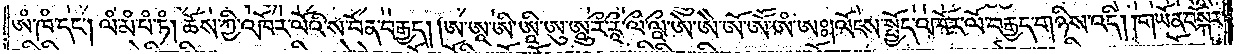ཨཾ་ཁཾ་དང༌། ལཾ་མཾ་པཾ་ཏཾ། ཆོས་ཀྱི་འཁོར་ལོའི་ས་བོན་བརྒྱད། །ཨ་ཨཱ་ཨི་ཨཱི་ཨུ་ཨཱུ་རྀ་རཱྀ་ལྀ་ལཱྀ་ཨེ་ཨཻ་ཨོ་ཨཽ་ཨཾ་ཨཿ། ལོངས་སྤྱོད་འཁོར་ལོ་བརྒྱད་གཉིས་འདི། །གཡོན་བསྐོར་
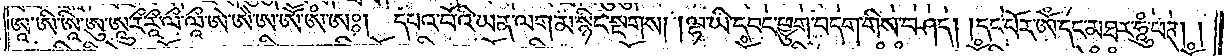ཨཱ་ཨི་ཨཱི་ཨུ་ཨཱུ་རྀ་རཱྀ་ལྀ་ལཱྀ་ཨེ་ཨཻ་ཨ་ཨཽ་ཨཾ་ཨཿ། དཔའ་བོའི་ཡན་ལག་མ་སྙིང་སྔགས། །ལྷ་ཡི་དབང་ཕྱུག་བདག་གིས་བཤད། །དང་པོ་ར་ཨོཾ་དང་མཐར་ཧཱུཾ་ཕཊ། །
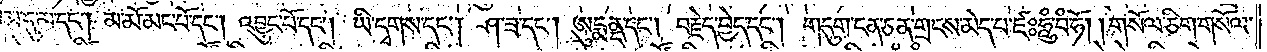མ་དུ་མ་དང༌། མ་མོ་མང་པོ་དང༌། འབྱུང་པོ་དང༌། ཡི་དྭགས་དང༌། ཤ་ཟ་དང༌། ཨུདྨནྡ་དང༌། བརྗོད་བྱེད་དང༌། གདུག་ངན་ཅན་གྲངས་མེད་པ་ཛཿཧཱུཾ་བཾ་ཧོ། །གསོལ་ཅིག་གསོལ་
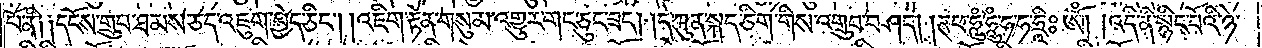པོ་ནི༑ ༑དངོས་གྲུབ་ཐམས་ཅད་འཇུག་བྱེད་ཅིང༌། །འཇིག་རྟེན་གསུམ་འགྱུར་གང་ཅུང་ཟད། །དེ་ཀུན་སྐད་ཅིག་གིས་འགྲུབ་བཤད། །ཊཕ་ཧཱུཾ་ཧཱུཾ་ཧ་ཧ་ཧྲཱིཿ ཨོཾ། །འདི་ནི་སྙིང་པོའི་ཉེ་
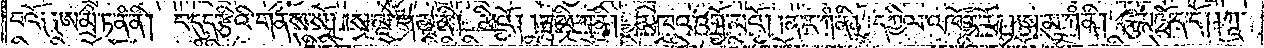བའོ༑ ༑ཨ་མྲྀ་ཏ་ནཾ་ནི། བདུད་རྩིའི་གནས་སོ། །ས་མཱ་ག་མཱ་ནི། མིའོ། །ཏཱ་ལི་ཀ་ནི། མཁའ་འགྲོ་མའོ། །ན་ར་ཀཾ་ནི། དཀྱིལ་འཁོར་རོ། །ཨ་མུ་ཀཾ་ནི། དུར་ཁྲོད་དོ། །ཀཱ་
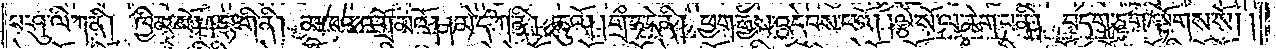པ་ཤུ་ལི་ཀ་ནི། ཁྱིམ་མོ། །བྷ་གི་ནི། མཁའ་འགྲོ་མའོ། །མེ་ད་ཀ་ནི། ཆུའོ། །གྲྀ་ཧ་དེ་ནི། ཕྱག་རྒྱས་འདེབས་པའོ། །ལྕེ་སོ་ལ་རེག་པ་ནི། བདག་ཅག་ལྟོགས་སོ༎
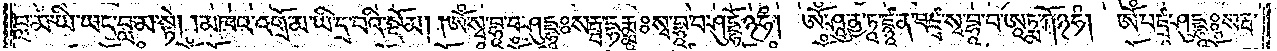བླ་མ་ཡི་ཡང་བླ་མ་སྟེ། །མཁའ་འགྲོ་མ་ཡི་དྲ་བའི་སྡོམ། །ཨོཾ་སྭ་བྷཱ་བ་ཤུདྡྷཱཿསརྦྦ་དྷརྨཱཿསྭ་བྷཱ་བ་ཤུདྡྷོ྅ཧཾ། ཨོཾ་ཤཱུ་ཉ་ཏཱ་ཛྙཱ་ན་བཛྲ་སྭ་བྷཱ་བ་ཨཱཏྨ་ཀོ྅ཧཾ། ཨོཾ་བཛྲ་ཤུདྡྷཱཿསརྦ།
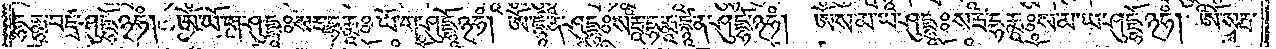དྷརྨཱ་བཛྲ་ཤུདྡྷོ྅ཧཾ། ཨོཾ་ཡོ་ག་ཤུདྡྷཱཿསརྦ་དྷརྨཱཿཡོ་ག་ཤུདྡྷཱོ྅ཧཾ། ཨོཾ་ཛྙཱ་ན་ཤུདྡྷཿསརྦཱ་དྷརྨཱ་ཛྙཱ་ན་ཤུདྡྷོ྅ཧཾ། ཨོཾ་ས་མ་ཡ་ཤུདྡྷཱཿསརྦ་དྷརྨཱཿས་མ་ཡ་ཤུདྡྷོ྅ཧཾ། ཨོཾ་སརྦ་
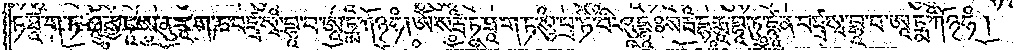ཏ་ཐཱ་ག་ཏ་ཤཱུ་ནྱ་ཏཱ་ཨ་ནུ་རཱ་ག་ཎ་བཛྲ་སྭ་བྷཱ་བ་ཨཱཏྨ་ཀོ྅ཧཾ། ཨོཾ་སརྦ་ཏ་ཐཱ་ག་ཏ་སུ་པྲ་ཏི་བི་ཤུདྡྷཱཿསརྦ་དྷརྨཱ་བྷཱ་ཏུ་ཛྙཱ་ན་བཛྲ་སྭ་བྷཱ་བ་ཨཱཏྨ་ཀོ྅ཧཾ།
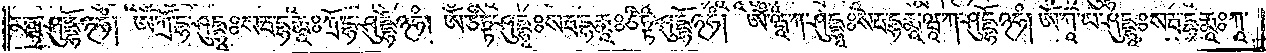མནྟྲ་ཤུདྡྷོ྅ཧཾ། ཨོཾ་ཀྲོ་དྷ་ཤུདྡྷཱཿསརྦ་དྷརྨཱཿཀྲོ་དྷ་ཤུདྡྷོ྅ཧཾ། ཨོཾ་ཙིཏྟ་ཤུདྡྷཱཿསརྦ་དྷརྨཱཿཙིཏྟ་ཤུདྡྷོ྅ཧཾ། ཨོཾ་ཝཱ་ཀ་ཤུདྡྷཱཿསརྦ་དྷརྨཱ་ཝཱ་ཀ་ཤུདྡྷོ྅ཧཾ། ཨོཾ་ཀཱ་ཡ་ཤུདྡྷཱཿསརྦ་དྷརྨཱཿཀཱ་
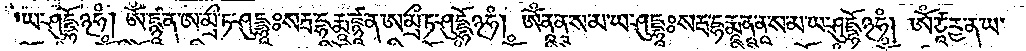ཡ་ཤུདྡྷོ྅ཧཾ། ཨོཾ་ཛྙཱ་ན་ཨ་མྲྀ་ཏ་ཤུདྡྷཱཿསརྦ་དྷརྨཱ་ཛྙཱ་ན་ཨ་མྲྀ་ཏ་ཤུདྡྷོ྅ཧཾ། ཨོཾ་ནཱ་ནཱ་ས་མ་ཡ་ཤུདྡྷཱཿསརྦ་དྷརྨཱ་ནཱ་ནཱ་ས་མ་ཡ་ཤུདྡྷོ྅ཧཾ། ཨོཾ་ཙཱ་ཪྱ་ན་ཡ་
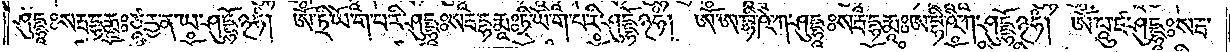ཤུདྡྷཱཿསརྦ་དྷརྨཱཿཙཱཪྱ་ན་ཡ་ཤུདྡྷོ྅ཧཾ། ཨོཾ་ཏྲི་ཡོ་ག་པ་རི་ཤུདྡྷཱཿསརྦ་དྷརྨཱཿཏྲི་ཡོ་ག་པ་རི་ཤུདྡྷོ྅ཧཾ། ཨོཾ་ཨ་ཕི་ཥེ་ཀ་ཤུདྡྷཱཿསརྦ་དྷརྨཱཿཨ་བྷི་ཥེ་ཀ་ཤུདྡྷོ྅ཧཾ། ཨོཾ་པཱུ་ཛ་ཤུདྡྷཱཿསརྦ་
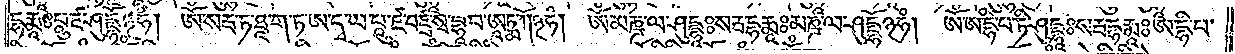དྷརྨཱཿཔཱུ་ཛ་ཤུདྡྷོ྅ཧཾ། ཨོཾ་སརྦ་ཏ་ཐཱ་ག་ཏ་ཨ་དྭ་ཡ་པཱུ་ཛ་བཛྲ་སྭ་བྷཱ་པ་ཨཱཏྨ་ཀོ྅ཧཾ། ཨོཾ་མཎྜལ་ལ་ཤུདྡྷཱཿསརྦ་དྷརྨཱཿམཎྜལ་ལ་ཤུདྡྷོ྅ཧཾ། ཨོཾ་ཨ་དྷི་པ་ཏི་ཤུདྡྷཱཿསརྦ་དྷརྨཱཿཨ་དྷི་པ་
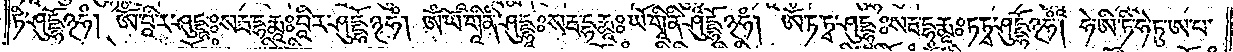ཏི་ཤུདྡྷོ྅ཧཾ། ཨོཾ་བཱི་ར་ཤུདྡྷཿསརྦ་དྷརྨཱཿབཱི་ར་ཤུདྡྷོ྅ཧཾ། ཨོཾ་ཡོ་གཱི་ནི་ཤུདྡྷཱཿསརྦ་དྷརྨཱཿཡོ་གཱི་ནི་ཤུདྡྷོ྅ཧཾ། ཨོཾ་ཏ་ཏྭ་ཤུདྡྷཿསརྦ་དྷརྨཱཿཏ་ཏྭ་ཤུདྡྷོ྅ཧཾ། ཧེ་ཨི་ཏི་ཧེ་ཏུ་ཨ་པ་
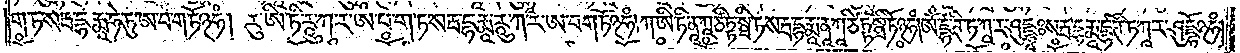ག་ཏ་སརྦ་དྷརྨཱ་ཧེ་ཏུ་ཨ་བ་ག་ཏོ྅ཧཾ། རུ་ཨི་ཏི་རཱུ་ཀ་ར་ཨ་པ་ག་ཏ་སརྦ་དྷརྨཱ་རཱུ་ཀ་ར་ཨ་བ་ག་ཏོ྅ཧཾ། ཀ་ཨི་ཏི་ནཱ་ཀཱ་ཙིཏྟ་སྠི་ཏ་སརྦ་དྷརྨཱ་ནཱ་ཀཱ་ཙིཏྟ་སྠི་ཏོ྅ཧཾ། ཨོཾ་ཛྷ་ཊི་ཏ་ཀཱ་ར་ཤུདྡྷཱཿསརྦ་དྷརྨཱ་ཛྷ་ཊི་ཏ་ཀཱ་ར་ཤུདྡྷོ྅ཧཾ།
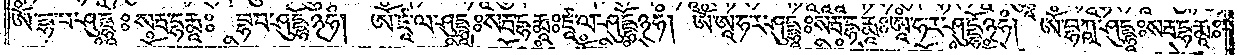ཨོཾ་བྷ་པ་ཤུདྡྷཱཿསརྦ་དྷརྨཱཿབྷ་བ་ཤུདྡྷོ྅ཧཾ། ཨོཾ་ཛཱ་ལ་ཤུདྡྷཱཿསརྦ་དྷརྨཱཿཛཱ་ལ་ཤུདྡྷོ྅ཧཾ། ཨོཾ་ཨཱ་ཧ་ར་ཤུདྡྷཱཿསརྦ་དྷརྨཱཿཨཱཾ་ཧ་ར་ཤུདྡྷོ྅ཧཾ། ཨོཾ་བྷཀྵ་ཤུདྡྷཱཿསརྦ་དྷརྨཱཿ
